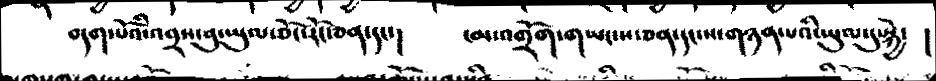བདག་པོའི་འབྲས་བུ་ཡུལ་ཅོང་རོང་ཅན་དང་།  ངམ་འགྲོག་གཡང་ས་ཅན་དང་ས་གཉན་པའི་ཡུལ་དུ་སྐྱེ་   །
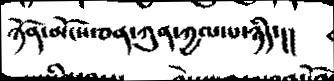ཉོན་མོངས་ཅན་ཀུན་ཀྱལ་པ་ཉིད་།།
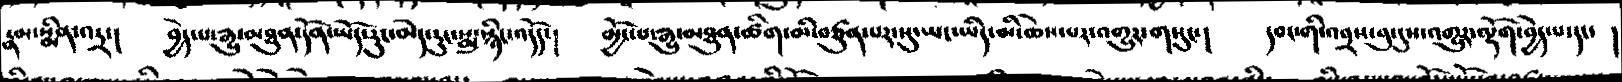རྣམ་སྨིན་འདྲ་།  བྱེད་པ་རྒྱུ་མཐུན་དོན་ཡོད་རུང་མེད་རུང་སྨུ་སྙིང་འདོད་།  མྱོང་པ་སྒྱུ་མཐུན་ཚིག་མི་བཙུན་པར་སུ་ཡང་ཡིད་མི་ཆེས་པར་འགྱུར་གསུང་།  དབང་གི་འབྲས་བུ་དུས་འགྱུར་ལྡོག་བྱེད་པ་དང་  །
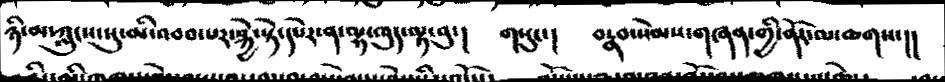ཉི་མ་ཀླུངས་སུ་མི་འབབ་པར་སྐྱེ་སྟེ་དཔེར་ན་ལྷ་ཁུད་ལྟ་བུ་།  གསུང་།  བརྣབ་སེམས་གཞན་གྱི་ནོར་ལ་ཆགས་།།
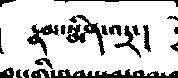རྣམ་སྨིན་འདྲ་།
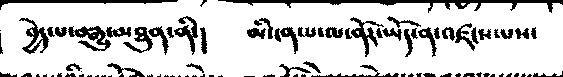བྱེད་པ་བརྒྱུ་མཐུན་ནི་།  མི་ངན་པ་ལ་ནོར་ཡོད་ན་འཛངས་པས་
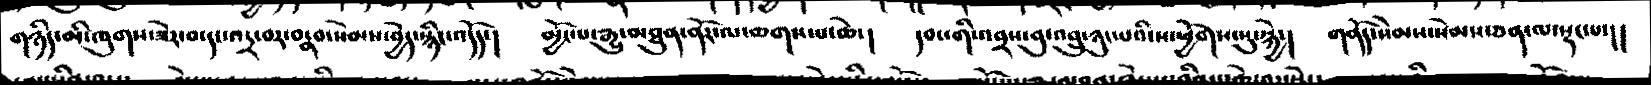གཉིད་མི་ཁུགས་ཟེར་བ་དང་འདྲ་བར་བརྣབ་སེམས་བྱེད་སྙིང་འདོད་།  མྱོང་པ་རྒྱུ་མཐུན་ནོར་ལ་ཆགས་པ་ཆེ་།  དབང་གིས་འབྲས་བུ་འབྲུ་ཉུང་པའི་ས་ཕྱོགས་སུ་སྐྱེ་།  གནོད་སེམས་སེམས་ཅན་ལ་སྡང་པ་།།
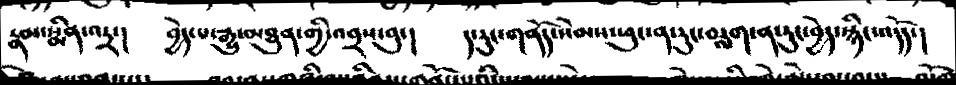རྣམ་སྨིན་འདྲ་།  བྱེད་པ་རྒྱུ་མཐུན་གྱི་འབྲས་བུ་།  ད་རུང་གནོད་སེམས་ཕུང་ན་རུང་བརླག་ན་རུང་བྱེད་སྙིང་འདོད་།
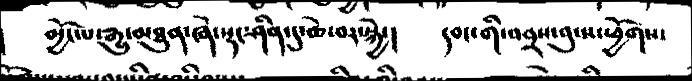མྱོང་པ་རྒྱུ་མཐུན་ཞེ་སྡང་ཤིན་དུ་ཆེ་བར་སྐྱེ་།   དབང་གི་འབྲས་བུ་ས་ཕྱོགས་
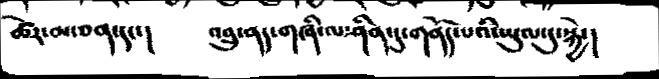ཚེར་མ་ཅན་དང་།      འབྲུ་ནད་གཞི་ལ་ཤིན་དུ་གནོད་པའི་ཡུལ་དུ་སྐྱེ་།
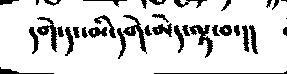དགེ་དང་མི་དགེ་མེད་ལྟ་བ་།།
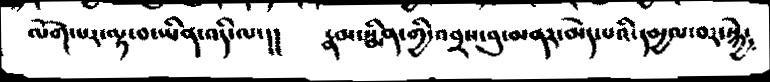ལོག་པར་ལྟ་བ་ཡིན་འདི་ལ་།།     རྣམ་སྨིན་གྱི་འབྲས་བུ་མནར་མེད་པའི་དམྱལ་བར་སྐྱེ༴
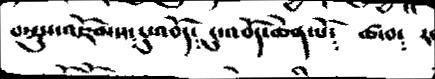བསྙུས་འཇོམས༴དུ་འབོད༴དུ་འབོད་ཆེན་པོ༴   ཚ་བ༴ ར་
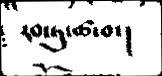རབ་ཏུ་ཚ་བ་།
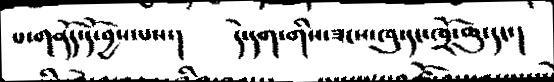པ་གནོད་དོ་བྱས་པས་།  དེ་དག་གིས་ཟངས་ཁུ་དང་ཁྲོ་ཆུ་དང་།
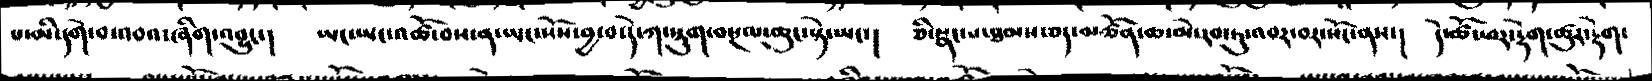པ་མི་དགེ་བ་འབའ་ཞིག་འབྱུང་།  ཡང་ཡང་འཚོ་བས་ན་ཡང་སོས་བྱ་བ་དེ་ཀ་སྡུག་བསྔལ་ཆུང་སྟེ་ཡང་།  ཅི་སྣང་པ་ཐམས་ཅད་མཚོན་ཆ་མེ་རབ་ཏུ་འབར་བར་སོང་ནས་།  དེ་ཚོང་བར་རྡེག་ཚུར་རྡེག་
